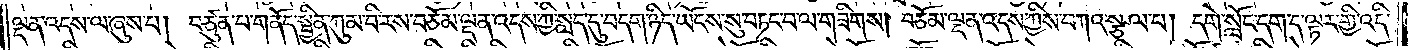ལྡན་འདས་ལ་ཞུས་པ། བཙུན་པ་གནོད་སྦྱིན་ཀུམ་བི་རས་བཅོམ་ལྡན་འདས་ཀྱི་སླད་དུ་བདག་ཉིད་ཡོངས་སུ་བཏང་བ་ལ་གཟིགས། བཅོམ་ལྡན་འདས་ཀྱིས་བཀའ་སྩལ་པ། དགེ་སློང་དག་ད་ལྟར་གྱི་འདི་
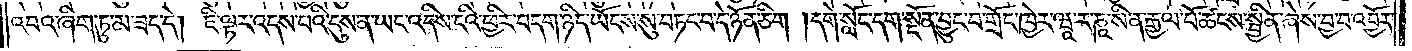འབའ་ཞིག་ཏུ་མ་ཟད་དེ། ཇི་ལྟར་འདས་པའི་དུས་ན་ཡང་འདིས་ངའི་ཕྱིར་བདག་ཉིད་ཡོངས་སུ་བཏང་བ་དེ་ཉོན་ཅིག །དགེ་སློང་དག་སྔོན་བྱུང་བ་གྲོང་ཁྱེར་ཝཱ་ར་ཎཱ་སི་ན་རྒྱལ་པོ་ཚངས་སྦྱིན་ཞེས་བྱ་བ་འབྱོར་
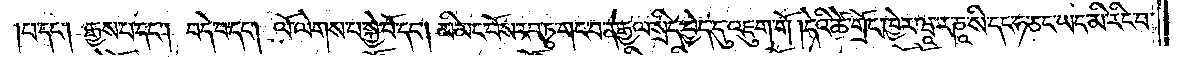པ་དང༌། རྒྱས་པ་དང༌། བདེ་བ་དང༌། ལོ་ལེགས་པ་སྐྱེ་བོ་དང༌། མི་མང་པོས་རབ་ཏུ་གང་བ་ན་རྒྱལ་སྲིད་བྱེད་དུ་འཇུག་གོ །དེའི་ཚེ་གྲོང་ཁྱེར་ཝཱ་ར་ཎཱ་སི་དང་ཧ་ཅང་ཡང་མི་རིང་བ་
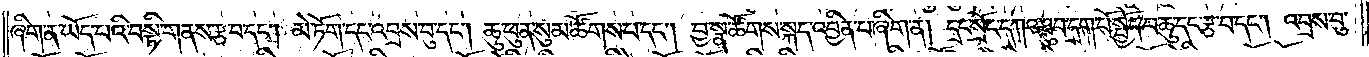ཞིག་ན་ཡོད་པའི་བསྟི་གནས་རྩ་བ་དང༌། མེ་ཏོག་དང་འབྲས་བུ་དང༌། ཆུ་ཕུན་སུམ་ཚོགས་པ་དང༌། བྱ་སྣ་ཚོགས་སྐད་འབྱིན་པ་ཞིག་ན། དྲང་སྲོང་དཀའ་ཐུབ་དྲག་པོ་སྤྱོད་པ་ཆུ་དང་རྩ་བ་དང༌། འབྲས་བུ་
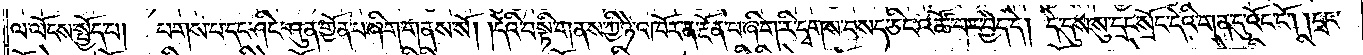ལ་ལོངས་སྤྱོད་པ། པགས་པ་དང་ཤིང་ཤུན་གྱོན་པ་ཞིག་གནས་སོ། །དེའི་བསྟི་གནས་ཀྱི་ཉེ་འཁོར་ན་རྔོན་པ་ཞིག་རི་དྭགས་བསད་ཅིང་འཚོ་བར་བྱེད་དེ། དེ་དུས་སུ་དྲང་སྲོང་དེའི་གན་དུ་འོང་ངོ༌། །དྲང་
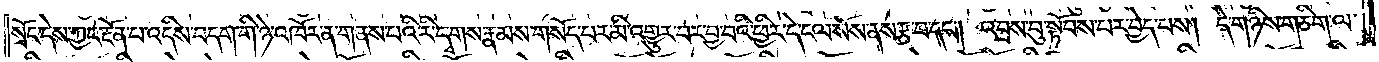སྲོང་དེས་ཀྱང་རྔོན་པ་འདིས་བདག་གི་ཉེ་འཁོར་ན་གནས་པའི་རི་དྭགས་རྣམས་གསོད་པར་མི་འགྱུར་བར་བྱ་བའི་ཕྱིར་དེ་ངལ་སོས་ནས་རྩ་བ་དང༌། འབྲས་བུ་སྟོབས་པར་བྱེད་པས། དེ་གཉིས་གཅིག་ལ་
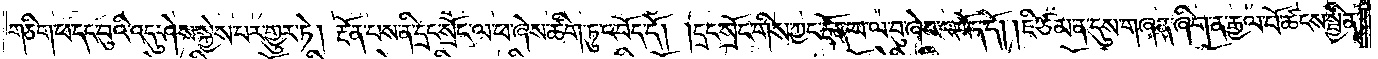གཅིག་ཕ་དང་བུའི་འདུ་ཤེས་སྐྱེས་པར་གྱུར་ཏེ། རྔོན་པས་ནི་དྲང་སྲོང་ལ་ཕ་ཞེས་ཚིག་ཏུ་འབོད་དོ། །དྲང་སྲོང་གིས་ཀྱང་རྔོན་པ་ལ་བུ་ཞེས་འབོད་དོ། །ཇི་ཙམ་ན་དུས་གཞན་ཞིག་ན་རྒྱལ་པོ་ཚངས་སྦྱིན་
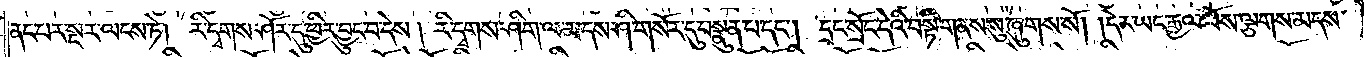ནང་པར་སྔར་ལངས་ཏེ། རི་དྭགས་ཤོར་དུ་ཕྱིར་བྱུང་བ་དེས། རི་དྭགས་ཤིག་ལ་མདས་ཤི་གསོར་དུ་བསྣུན་པ་དང༌། དྲང་སྲོང་དེའི་བསྟི་གནས་སུ་ཞུགས་སོ། །དེར་ཡང་རྒྱལ་པོས་ལྕགས་མདས་
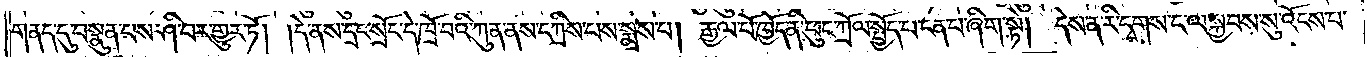གནད་དུ་བསྣུན་པས་ཤི་བར་གྱུར་ཏོ། །དེ་ནས་དྲང་སྲོང་དེ་ཁྲོ་བའི་ཀུན་ནས་དཀྲིས་པས་སྨྲས་པ། རྒྱལ་པོ་ཁྱོད་ནི་ཕུང་དཀྲོལ་སྤྱོད་པ་ངན་པ་ཞིག་སྟེ། དེས་ན་རི་དྭགས་ང་ལ་སྐྱབས་སུ་འོངས་པ་
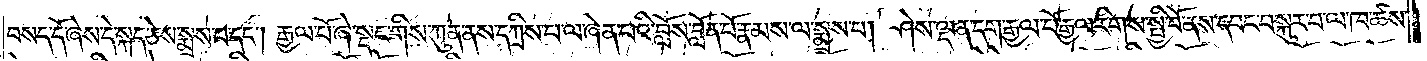བསད་དོ་ཞེས་དེ་སྐད་ཅེས་སྨྲས་པ་དང༌། རྒྱལ་པོ་ཞེ་སྡང་གིས་ཀུན་ནས་དཀྲིས་པ་ལ་ཞེན་པའི་བློས་བློན་པོ་རྣམས་ལ་སྨྲས་པ། ཤེས་ལྡན་དག་རྒྱལ་པོ་རྒྱལ་རིགས་སྤྱི་བོ་ནས་དབང་བསྐུར་བ་ལ་ཁ་ཚས་
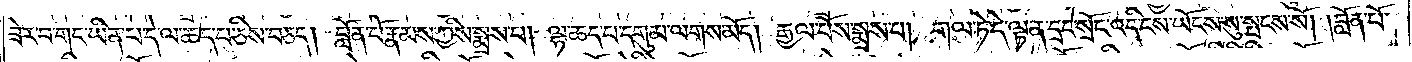ཟེར་བ་གང་ཡིན་པ་དེ་ལ་ཆད་པ་ཅིས་བཅད། བློན་པོ་རྣམས་ཀྱིས་སྨྲས་པ། ལྷ་ཆད་པ་དགུམ་ལགས་མོད། རྒྱལ་པོས་སྨྲས་པ། གལ་ཏེ་དེ་ལྟ་ན་དྲང་སྲོང་འདི་ངས་ཡོངས་སུ་སྤངས་སོ། །བློན་པོ་
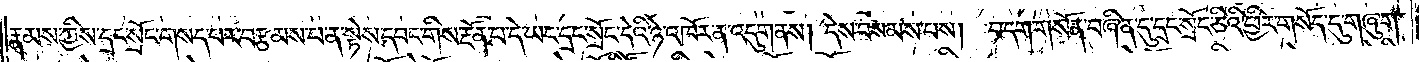རྣམས་ཀྱིས་དྲང་སྲོང་གསད་པར་བརྩམས་པ་ན་སྟེས་དབང་གིས་རྔོན་པ་དེ་ཡང་དྲང་སྲོང་དེའི་ཉེ་འཁོར་ན་འདུག་ནས། དེས་བསམས་པས། བདག་གསོན་བཞིན་དུ་དྲང་སྲོང་ཅིའི་ཕྱིར་གསོད་དུ་གཞུག་
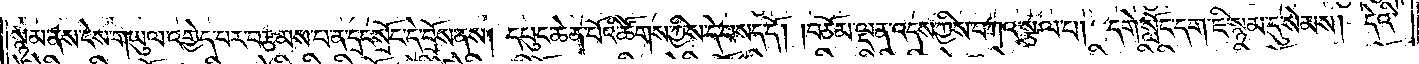སྙམ་ནས་ངེས་གཡུལ་འགྱེད་པར་བརྩམས་པ་ན་དྲང་སྲོང་དེ་བྲོས་ནས། དཔུང་ཆེན་པོའི་ཚོགས་ཀྱིས་དེ་བསད་དོ། །བཅོམ་ལྡན་འདས་ཀྱིས་བཀའ་སྩལ་པ། དགེ་སློང་དག་ཇི་སྙམ་དུ་སེམས། དེའི་
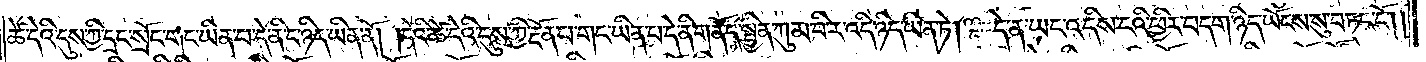ཚེ་དེའི་དུས་ཀྱི་དྲང་སྲོང་གང་ཡིན་པ་དེ་ནི་ང་ཉིད་ཡིན་ནོ། །དེའི་ཚེ་དེའི་དུས་ཀྱི་རྔོན་པ་གང་ཡིན་པ་དེ་ནི་གནོད་སྦྱིན་ཀུམ་བི་ར་འདི་ཉིད་ཡིན་ཏེ། དེ་ན་ཡང་འདིས་ངའི་ཕྱིར་བདག་ཉིད་ཡོངས་སུ་བཏང་ངོ༌། །
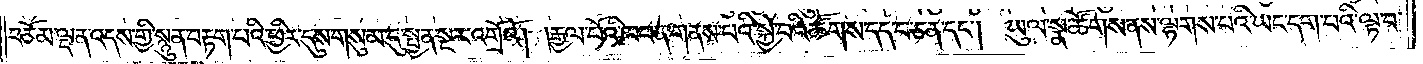བཅོམ་ལྡན་འདས་གྱི་སྙུན་བརྟག་པའི་ཕྱིར་དུས་གསུམ་དུ་སྤྱན་སྔར་འགྲོའོ། །རྒྱལ་པོའི་ཁབ་ན་གནས་པའི་སྐྱེ་བའི་ཚོགས་དད་པ་ཅན་དང༌། ཡུལ་སྣ་ཚོགས་ནས་ལྷགས་པའི་ཡང་དག་པའི་ལྟ་བ་
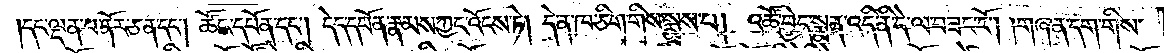།དང་ལྡན་པ་ནོར་ཅན་དང༌། ཚོང་དཔོན་དང༌། དེད་དཔོན་རྣམས་ཀྱང་འོངས་ཏེ། དེ་ན་ཁ་ཅིག་གིས་སྨྲས་པ། འཚོ་བྱེད་སྨན་འདི་ནི་དེ་ལ་བཟང་ངོ༌། །གཞན་དག་གིས་
